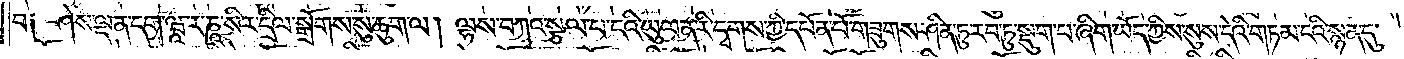བ། ཤེས་ལྡན་དག་ཝཱ་ར་ཎཱ་སིར་དྲིལ་སྒྲོགས་སུ་ཆུག་ལ། ལྷས་བཀའ་སྩལ་པ་ངའི་ཡུལ་ན་རི་དྭགས་ཀྱི་དཔོན་པོ་གཟུགས་ཤིན་ཏུ་རབ་ཏུ་སྡུག་པ་ཞིག་ཡོད་ཀྱིས་སུས་དེའི་གཏམ་ངའི་སྙན་དུ་
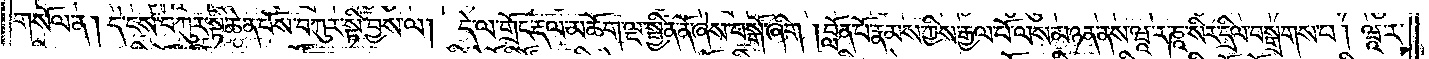གསོལ་ན། དེ་ངས་བཀུར་སྟི་ཆེན་པོས་བཀུར་སྟི་བྱས་ལ། དེ་ལ་གྲོང་རྡལ་མཆོག་ལྔ་སྦྱིན་ནོ་ཞེས་བསྒོ་ཞིག །བློན་པོ་རྣམས་ཀྱིས་རྒྱལ་པོ་ལས་མཉན་ནས་ཝཱ་ར་ཎཱ་སིར་དྲིལ་བསྒྲགས་པ། ཝཱ་ར་
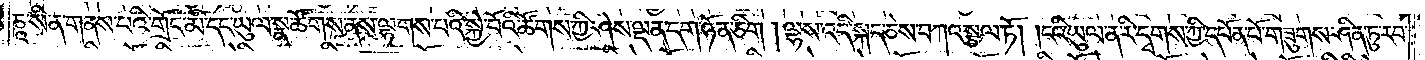ཎཱ་སི་ན་གནས་པའི་གྲོང་མི་དང་ཡུལ་སྣ་ཚོགས་ནས་ལྷགས་པའི་སྐྱེ་བོའི་ཚོགས་ཀྱི་ཤེས་ལྡན་དག་ཉོན་ཅིག །ལྷས་འདི་སྐད་ཅེས་བཀའ་སྩལ་ཏོ། །ངའི་ཡུལ་ན་རི་དྭགས་ཀྱི་དཔོན་པོ་གཟུགས་ཤིན་ཏུ་རབ་
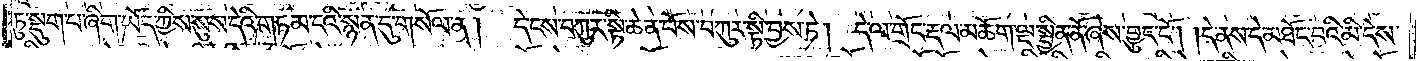ཏུ་སྡུག་པ་ཞིག་ཡོད་ཀྱིས་སུས་དེའི་གཏམ་ངའི་སྙན་དུ་གསོལ་ན། དེ་ངས་བཀུར་སྟི་ཆེན་པོས་བཀུར་སྟི་བྱས་ཏེ། དེ་ལ་གྲོང་རྡལ་མཆོག་ལྔ་སྦྱིན་ནོ་ཞེས་བྱུང་ངོ༌། །དེ་ནས་དེ་མཐོང་བའི་མི་ངེས་
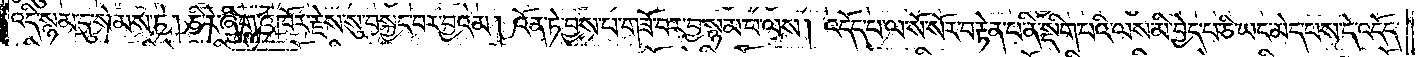འདི་སྙམ་དུ་སེམས་ཏེ། ཅི་རེ་ཞིག་འཁོར་རྗེས་སུ་བསྐྱང་བར་བྱའམ། འོན་ཏེ་བྱས་པ་གཟོ་བར་བྱ་སྙམ་པ་ལས། འདོད་པ་ལ་སོ་སོར་བརྟེན་པ་ནི་སྡིག་པའི་ལས་མི་བྱེད་པ་ཅི་ཡང་མེད་པས་དེ་འདོད་
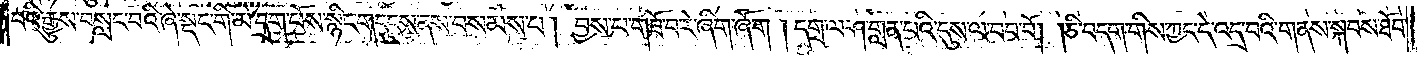པའི་རྒྱུས་བསླང་བའི་ཞེ་སྡང་གི་མེ་དྲག་པོས་སྙིང་གདུངས་ནས་པ་བསམས་པ། བྱས་པ་གཟོ་བ་རེ་ཞིག་ཞོག །དགྲ་ལ་ཤ་གླན་པའི་དུས་ལ་བབ་པོ། །ཅི་བདག་གིས་ཀྱང་དེ་འདྲ་བའི་གནས་སྐབས་ཐོབ་
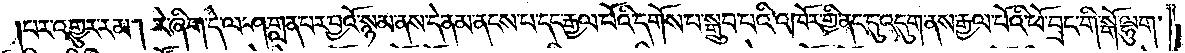པར་འགྱུར་རམ། རེ་ཞིག་དེ་ལ་ཤ་གླན་པར་བྱའོ་སྙམ་ནས་དེ་ནམ་ནངས་པ་དང་རྒྱལ་པོའི་དགོས་པ་སྒྲུབ་པའི་འཁོར་གྱི་ནང་དུ་འདུག་ནས་རྒྱལ་པོའི་ཕོ་བྲང་གི་སྒོ་ལྷུག་
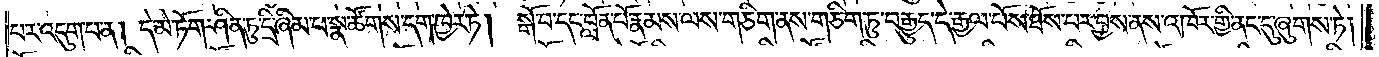པར་འདུག་པ་ན། དེ་མེ་ཏོག་ཤིན་ཏུ་དྲི་ཞིམ་པ་སྣ་ཚོགས་དག་ཁྱེར་ཏེ། སྒོ་བ་དང་བློན་པོ་རྣམས་ལས་གཅིག་ནས་གཅིག་ཏུ་ང་རྒྱུད་དེ་རྒྱལ་པོས་ཐོས་པར་བྱས་ནས་འཁོར་གྱི་ནང་དུ་ཞུགས་ཏེ།
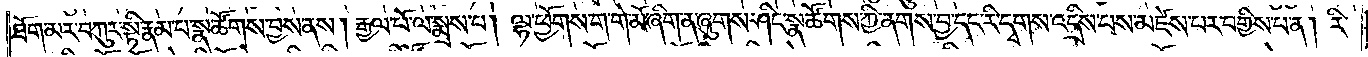ཐོག་མར་བཀུར་སྟི་རྣམ་པ་སྣ་ཚོགས་བྱས་ནས། རྒྱལ་པོ་ལ་སྨྲས་པ། ལྷ་ཕྱོགས་གེ་མོ་ཞིག་ན་ཞུགས་ཤིང་སྣ་ཚོགས་ཀྱི་ནགས་བྱ་དང་རི་དྭགས་འདྲིས་པས་མཛེས་པར་བགྱིས་པ་ན། རི་
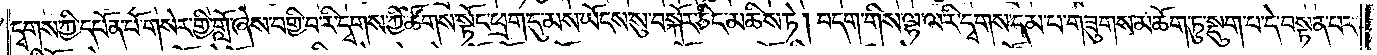དྭགས་ཀྱི་དཔོན་པོ་གསེར་གྱི་གློ་ཞེས་བགྱི་བ་རི་དྭགས་ཀྱི་ཚོགས་སྟོང་ཕྲག་དུ་མས་ཡོངས་སུ་བསྐོར་ཅིང་མཆིས་ཏེ། བདག་གིས་ལྷ་ལ་རི་དྭགས་དམ་པ་གཟུགས་མཆོག་ཏུ་སྡུག་པ་དེ་བསྟན་པར་
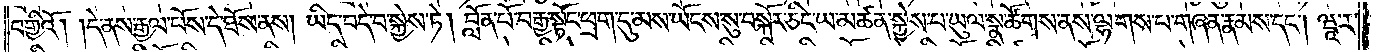བགྱིའོ། །དེ་ནས་རྒྱལ་པོས་དེ་ཐོས་ནས། ཡིད་བདེ་བ་སྐྱེས་ཏེ། བློན་པོ་བརྒྱ་སྟོང་ཕྲག་དུ་མས་ཡོངས་སུ་བསྐོར་ཅིང་ཡ་མཚན་སྐྱེས་པ་ཡུལ་སྣ་ཚོགས་ནས་ལྷགས་པ་གཞན་རྣམས་དང༌། ཝཱ་ར་
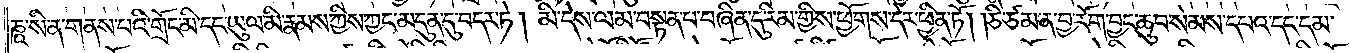ཎཱ་སི་ན་གནས་པའི་གྲོང་མི་དང་ཡུལ་མི་རྣམས་ཀྱིས་ཀྱང་མདུན་དུ་བདར་ཏེ། མི་དེས་ལམ་བསྟན་པ་བཞིན་དུ་རིམ་གྱིས་ཕྱོགས་དེར་ཕྱིན་ཏོ། །ཅི་ཙམ་ན་བྱ་རོག་བྱང་ཆུབ་སེམས་དཔའ་དང་དམ་
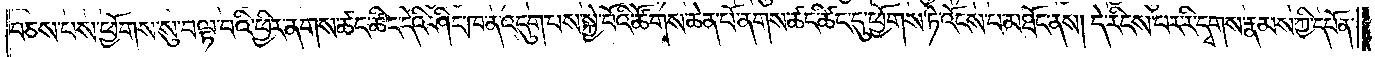བཅས་པས་ཕྱོགས་སུ་བལྟ་བའི་ཕྱིར་ནགས་ཚང་ཚིང་དེའི་ཤིང་ཁ་ན་འདུག་པས་སྐྱེ་བོའི་ཚོགས་ཆེན་པོ་ནགས་ཚང་ཚིང་དུ་ཕྱོགས་ཏེ་འོངས་པ་མཐོང་ནས། དེ་རིངས་པར་རི་དྭགས་རྣམས་ཀྱི་དཔོན་
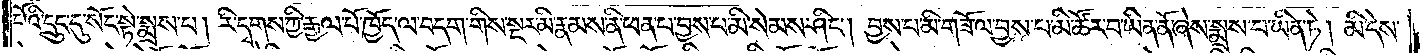པོའི་དྲུང་དུ་སོང་སྟེ་སྨྲས་པ། རི་དྭགས་ཀྱི་རྒྱལ་པོ་ཁྱོད་ལ་བདག་གིས་སྔར་མི་རྣམས་ནི་ཕན་པ་བྱས་པ་མི་སེམས་ཤིང༌། བྱས་པ་མི་གཟོ་ལ་བྱས་པ་མི་ཚོར་བ་ཡིན་ནོ་ཞེས་སྨྲས་པ་ཡིན་ཏེ། མི་དེས་
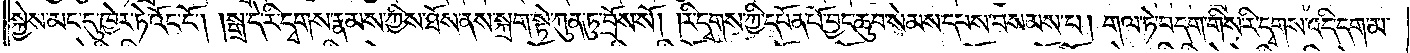སྐྱེས་མང་དུ་ཁྱེར་ཏེ་འོང་ངོ༌། །སྒྲ་དེ་རི་དྭགས་རྣམས་ཀྱིས་ཐོས་ནས་སྐྲག་སྟེ་ཀུན་ཏུ་བྲོས་སོ། །རི་དྭགས་ཀྱི་དཔོན་པོ་བྱང་ཆུབ་སེམས་དཔས་བསམས་པ། གལ་ཏེ་བདག་གིས་རི་དྭགས་འདི་དག་མ་
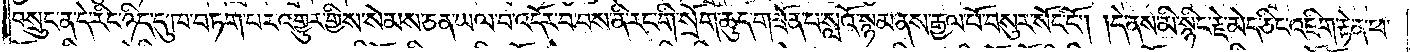བསྲུང་ན་དེ་རིང་ཉིད་དུ་ཁ་བཏག་པར་འགྱུར་གྱིས་སེམས་ཅན་ཡལ་བ་འདོར་བ་བས་ནི་རང་གི་སྲོག་ཆུད་གཟོན་པ་སླའོ་སྙམ་ནས་རྒྱལ་པོ་བསུར་སོང་ངོ༌། །དེ་ནས་མི་སྙིང་རྗེ་མེད་ཅིང་འཇིག་རྟེན་ཕ་
